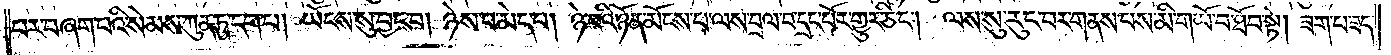པར་བཞག་པའི་སེམས་ཀུན་ཏུ་དག་པ། ཡོངས་སུ་བྱང་བ། ཉེས་པ་མེད་པ། ཉེ་བའི་ཉོན་མོངས་པ་ལས་བྲལ་བ་དྲང་པོར་གྱུར་ཅིང༌། ལས་སུ་རུང་བས་གནས་པར་གནས་པས་མི་གཡོ་བ་ཐོབ་སྟེ། ཟག་པ་ཟད་
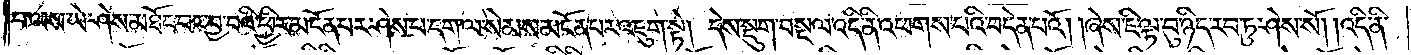པ་ལས་ཡེ་ཤེས་མཐོང་བར་བྱ་བའི་ཕྱིར་མངོན་པར་ཤེས་པ་དག་ལ་སེམས་མངོན་པར་འཇུག་སྟེ། དེས་སྡུག་བསྔལ་འདི་ནི་འཕགས་པའི་བདེན་པའོ། །ཞེས་ཇི་ལྟ་བུ་ཉིད་རབ་ཏུ་ཤེས་སོ། །འདི་ནི་
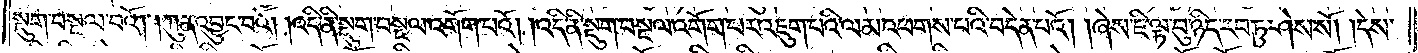སྡུག་བསྔལ་བའོ། །ཀུན་འབྱུང་བའོ། །འདི་ནི་སྡུག་བསྔལ་འགོག་པའོ། །འདི་ནི་སྡུག་བསྔལ་འགོག་པར་འཇུག་པའི་ལམ་འཕགས་པའི་བདེན་པའོ། །ཞེས་ཇི་ལྟ་བུ་ཉིད་རབ་ཏུ་ཤེས་སོ། །དེས་
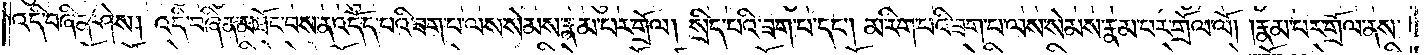འདི་བཞིན་ཤེས། འདི་བཞིན་མཐོང་བས་ན་འདོད་པའི་ཟག་པ་ལས་སེམས་རྣམ་པར་གྲོལ། སྲིད་པའི་ཟག་པ་དང༌། མ་རིག་པའི་ཟག་པ་ལས་སེམས་རྣམ་པར་གྲོལ་ལོ། །རྣམ་པར་གྲོལ་ནས་
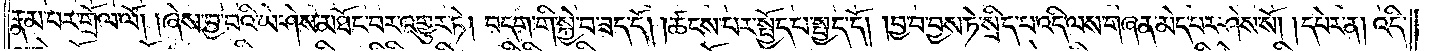རྣམ་པར་གྲོལ་ལོ། །ཞེས་བྱ་བའི་ཡེ་ཤེས་མཐོང་བར་འགྱུར་ཏེ། བདག་གི་སྐྱེ་བ་ཟད་དོ། །ཚངས་པར་སྤྱོད་པ་སྤྱད་དོ། །བྱ་བ་བྱས་ཏེ་སྲིད་པ་འདི་ལས་གཞན་མེད་པར་ཤེས་སོ། །དཔེར་ན། འདི་
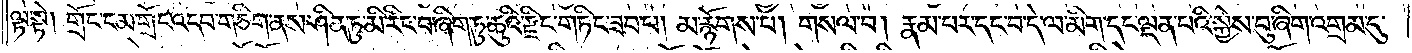ལྟ་སྟེ། གྲོང་ངམ་གྲོང་འདབ་གཅིག་ནས་ཤིན་ཏུ་མི་རིང་བ་ཞིག་ཏུ་ཆུའི་རྫིང་གཏིང་ཟབ་པ། མ་རྙོགས་པ། གསལ་བ། རྣམ་པར་དང་བ་དེ་ལ་མིག་དང་ལྡན་པའི་སྐྱེས་བུ་ཞིག་འགྲམ་དུ་
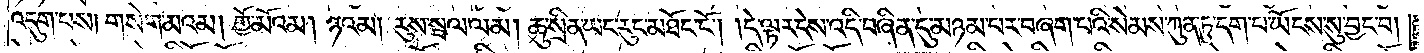འདུག་པས། གསེག་མའམ། གྱོ་མོའམ། ཉའམ། རུས་སྦལ་ལམ། ཆུ་སྲིན་ཡང་རུང་མཐོང་ངོ༌། །དེ་ལྟར་དེས་འདི་བཞིན་དུ་མཉམ་པར་བཞག་པའི་སེམས་ཀུན་ཏུ་དག་པ་ཡོངས་སུ་བྱང་བ།
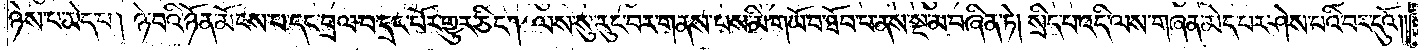ཉེས་པ་མེད་པ། ཉེ་བའི་ཉོན་མོངས་པ་དང་བྲལ་བ་དྲང་པོར་གྱུར་ཅིང༌། ལས་སུ་རུང་བར་གནས་པས་མི་གཡོ་བ་ཐོབ་པ་ནས་སྔ་མ་བཞིན་ཏེ། སྲིད་པ་འདི་ལས་གཞན་མེད་པར་ཤེས་པའི་བར་དུའོ། །
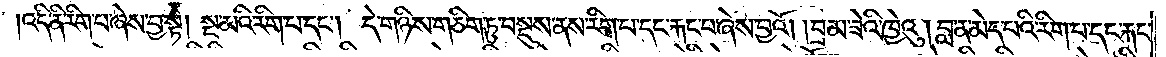འདི་ནི་རིག་པ་ཞེས་བྱ་སྟེ། སྔ་མའི་རིག་པ་དང༌། དེ་གཉིས་གཅིག་ཏུ་བསྡུས་ནས་རིག་པ་དང་རྐང་པ་ཞེས་བྱའོ། །བྲམ་ཟེའི་ཁྱེའུ། །བླ་ན་མེད་པའི་རིག་པ་དང་རྐང་
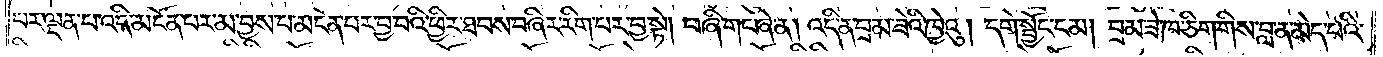པར་ལྡན་པ་འདི་མངོན་པར་མ་བྱས་པ་མངོན་པར་བྱ་བའི་ཕྱིར་ཐབས་བཞིར་རིག་པར་བྱ་སྟེ། བཞི་གང་ཞེ་ན། འདི་ན་བྲམ་ཟེའི་ཁྱེའུ། དགེ་སྦྱོང་ངམ། བྲམ་ཟེ་ཁ་ཅིག་གིས་བླ་ན་མེད་པའི་
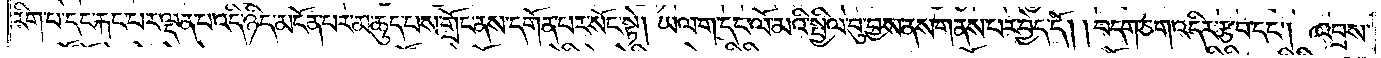རིག་པ་དང་རྐང་པར་ལྡན་པ་འདི་ཉིད་མངོན་པར་མ་ཆུད་པས་གྲོང་ནས་དགོན་པར་སོང་སྟེ། ཡལ་ག་དང་ལོ་མའི་སྤྱིལ་བུ་བྱས་ནས་གནས་པར་བྱེད་དོ། །བདག་ཅག་འདིར་རྩ་བ་དང༌། འབྲས་
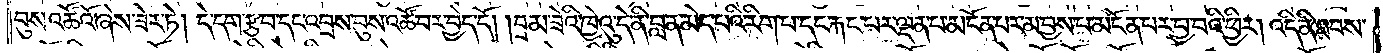བུས་འཚོའོ་ཞེས་ཟེར་ཏེ། དེ་དག་རྩ་བ་དང་འབྲས་བུས་འཚོ་བར་བྱེད་དོ། །བྲམ་ཟེའི་ཁྱེའུ་དེ་ནི་བླ་ན་མེད་པའི་རིག་པ་དང་རྐང་པར་ལྡན་པ་མངོན་པར་མ་བྱས་པ་མངོན་པར་བྱ་བའི་ཕྱིར། འདི་ནི་ཐབས་
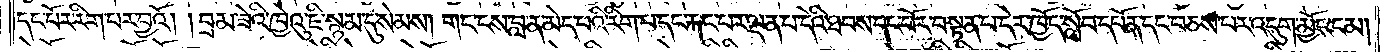དང་པོར་རིག་པར་བྱའོ། །བྲམ་ཟེའི་ཁྱེའུ་ཇི་སྙམ་དུ་སེམས། གང་ངས་བླ་ན་མེད་པའི་རིག་པ་དང་རྐང་པར་ལྡན་པ་དེའི་ཐབས་དང་པོར་བསྟན་པ་དེར་ཁྱོད་སློབ་དཔོན་དང་བཅས་པར་འདུག་མྱོང་ངམ།
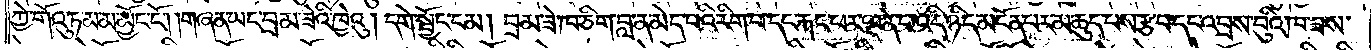ཀྱེ་གོའུ་ཏ་མ་མ་མྱོང་ངོ༌། །གཞན་ཡང་བྲམ་ཟེའི་ཁྱེའུ། དགེ་སྦྱོང་ངམ། བྲམ་ཟེ་ཁ་ཅིག་བླ་ན་མེད་པའི་རིག་པ་དང་རྐང་པར་ལྡན་པ་འདི་ཉིད་མངོན་པར་མ་ཆུད་པས་རྩ་བ་དང་འབྲས་བུའི་ཁ་ཟས་
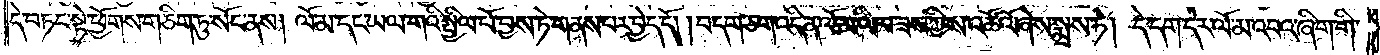དེ་བཏང་སྟེ་ཕྱོགས་གཅིག་ཏུ་སོང་ནས། ལོ་མ་དང་ཡལ་གའི་སྤྱིལ་པོ་བྱས་ཏེ་གནས་པར་བྱེད་དོ། །བདག་ཅག་འདི་ན་ལོ་མའི་ཁ་ཟས་ཀྱིས་འཚོའོ་ཞེས་སྨྲས་ཏེ། དེ་དག་དེར་ལོ་མ་འབའ་ཞིག་གི་
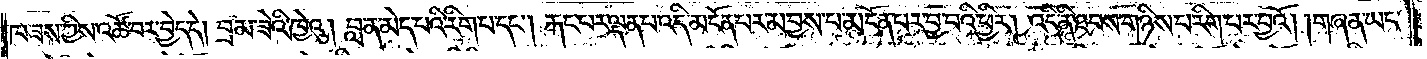ཁ་ཟས་ཀྱིས་འཚོ་བར་བྱེད་དེ། བྲམ་ཟེའི་ཁྱེའུ། བླ་ན་མེད་པའི་རིག་པ་དང༌། རྐང་པར་ལྡན་པ་འདི་མངོན་པར་མ་བྱས་པ་མངོན་པར་བྱ་བའི་ཕྱིར། འདི་ནི་ཐབས་གཉིས་པ་རིག་པར་བྱའོ། །གཞན་ཡང་
